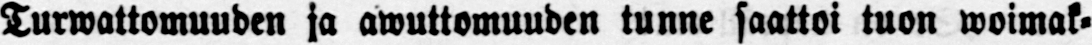Turwattomuuden ja awuttomuuden tunne saattoi tuon woimak-
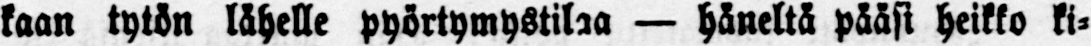kaan tytön lähelle pyörtymystilaa — häneltä pääsi heikko ki-
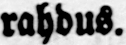rahdus.
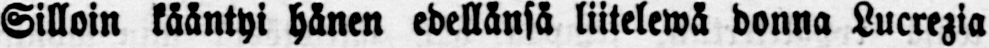Silloin kääntyi hänen edellänsä liitelewä donna Lucrezia
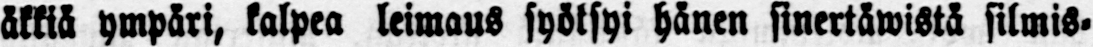äkkiä ympäri, kalpea leimaus syöksyi hänen sinertäwistä silmis-
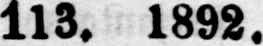No. 113. 1892.
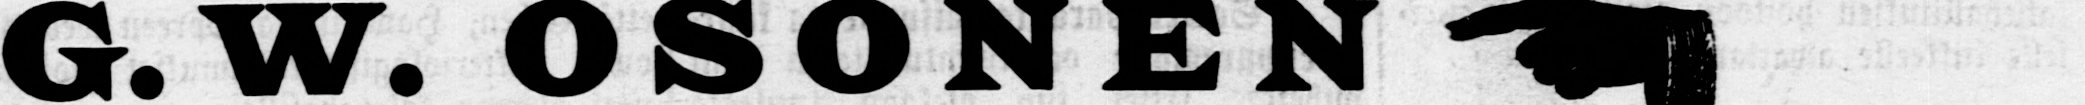G. W. OSONEN
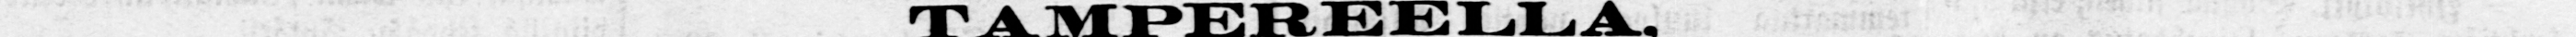TAMPEREELLA,
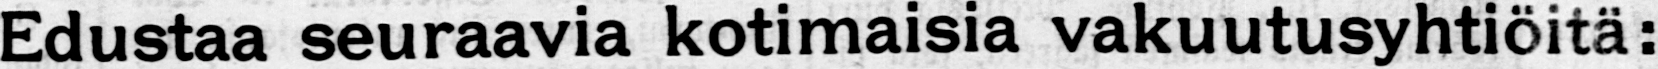Edustaa seuraavia kotimaisia vakuutusyhtiöitä:
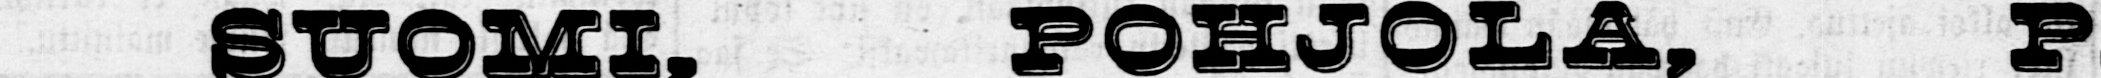SUOMI,
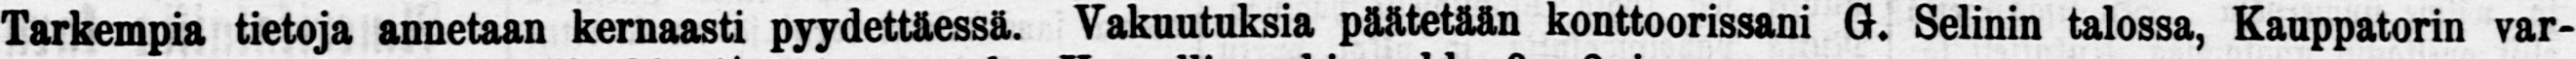Tarkempia tietoja annetaan kernaasti Vakuutuksia päätetään konttoorissani G. Selinin talossa, Kauppatorin var-
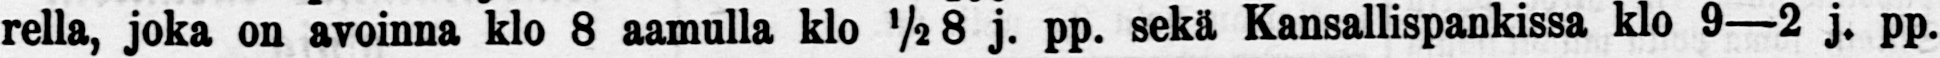rella, on avoinna klo 8 aamulla klo ½ 8 j. pp. sekä Kansallispankissa klo 9—2 j. pp.
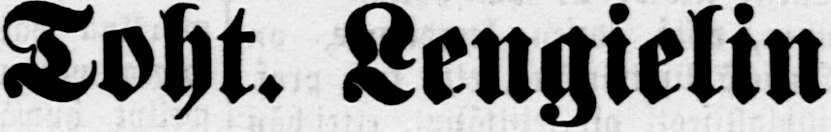Toht. Lengielin
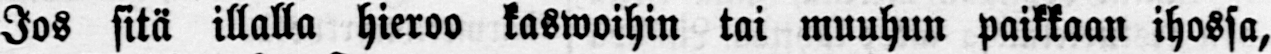Jos sitä illalla hieroo kaswoihin tai muuhun paikkaan ihossa,
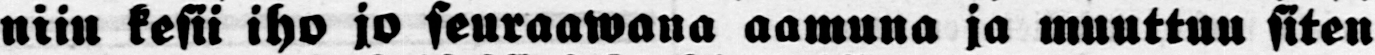niin kesii iho jo seuraawana aamuna ja muuttuu siten
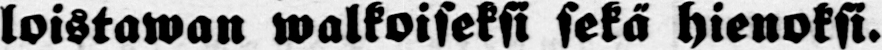loistawan walkoiseksi sekä hienoksi.
